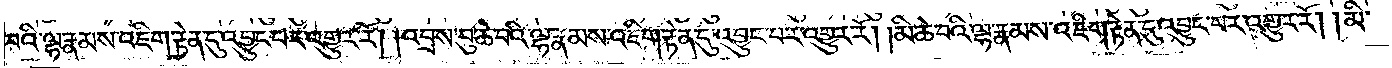བའི་ལྷ་རྣམས་འཇིག་རྟེན་དུ་འབྱུང་བར་འགྱུར་རོ། །འབྲས་བུ་ཆེ་བའི་ལྷ་རྣམས་འཇིག་རྟེན་དུ་འབྱུང་བར་འགྱུར་རོ། །མི་ཆེ་བའི་ལྷ་རྣམས་འཇིག་རྟེན་དུ་འབྱུང་བར་འགྱུར་རོ། །མི་
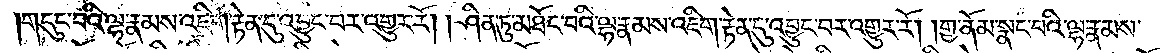གདུང་བའི་ལྷ་རྣམས་འཇིག་རྟེན་དུ་འབྱུང་བར་འགྱུར་རོ། །ཤིན་ཏུ་མཐོང་བའི་ལྷ་རྣམས་འཇིག་རྟེན་དུ་འབྱུང་བར་འགྱུར་རོ། །གྱ་ནོམ་སྣང་བའི་ལྷ་རྣམས་
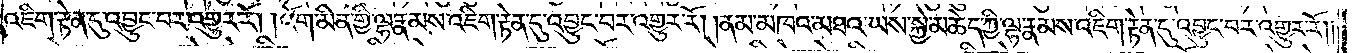འཇིག་རྟེན་དུ་འབྱུང་བར་འགྱུར་རོ། །འོག་མིན་གྱི་ལྷ་རྣམས་འཇིག་རྟེན་དུ་འབྱུང་བར་འགྱུར་རོ། །ནམ་མཁའ་མཐའ་ཡས་སྐྱེ་མཆེད་ཀྱི་ལྷ་རྣམས་འཇིག་རྟེན་དུ་འབྱུང་བར་འགྱུར་རོ། །
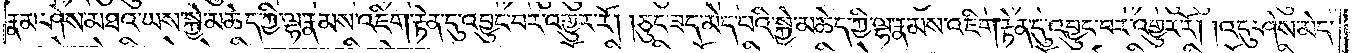རྣམ་ཤེས་མཐའ་ཡས་སྐྱེ་མཆེད་ཀྱི་ལྷ་རྣམས་འཇིག་རྟེན་དུ་འབྱུང་བར་འགྱུར་རོ། །ཅུང་ཟད་མེད་པའི་སྐྱེ་མཆེད་ཀྱི་ལྷ་རྣམས་འཇིག་རྟེན་དུ་འབྱུང་བར་འགྱུར་རོ། །འདུ་ཤེས་མེད་
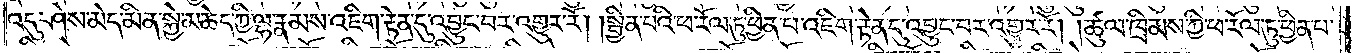འདུ་ཤེས་མེད་མིན་སྐྱེ་མཆེད་ཀྱི་ལྷ་རྣམས་འཇིག་རྟེན་དུ་འབྱུང་བར་འགྱུར་རོ། །སྦྱིན་པའི་ཕ་རོལ་ཏུ་ཕྱིན་པ་འཇིག་རྟེན་དུ་འབྱུང་བར་འགྱུར་རོ། །ཚུལ་ཁྲིམས་ཀྱི་ཕ་རོལ་ཏུ་ཕྱིན་པ་
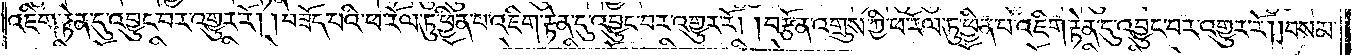འཇིག་རྟེན་དུ་འབྱུང་བར་འགྱུར་རོ། །བཟོད་པའི་ཕ་རོལ་ཏུ་ཕྱིན་པ་འཇིག་རྟེན་དུ་འབྱུང་བར་འགྱུར་རོ། །བརྩོན་འགྲུས་ཀྱི་ཕ་རོལ་ཏུ་ཕྱིན་པ་འཇིག་རྟེན་དུ་འབྱུང་བར་འགྱུར་རོ། །བསམ་
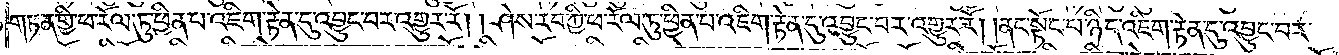གཏན་གྱི་ཕ་རོལ་ཏུ་ཕྱིན་པ་འཇིག་རྟེན་དུ་འབྱུང་བར་འགྱུར་རོ། །ཤེས་རབ་ཀྱི་ཕ་རོལ་ཏུ་ཕྱིན་པ་འཇིག་རྟེན་དུ་འབྱུང་བར་འགྱུར་རོ། །ནང་སྟོང་པ་ཉིད་འཇིག་རྟེན་དུ་འབྱུང་བར་
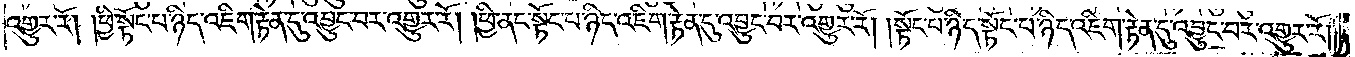འགྱུར་རོ། །ཕྱི་སྟོང་པ་ཉིད་འཇིག་རྟེན་དུ་འབྱུང་བར་འགྱུར་རོ། །ཕྱི་ནང་སྟོང་པ་ཉིད་འཇིག་རྟེན་དུ་འབྱུང་བར་འགྱུར་རོ། །སྟོང་པ་ཉིད་སྟོང་པ་ཉིད་འཇིག་རྟེན་དུ་འབྱུང་བར་འགྱུར་རོ༎
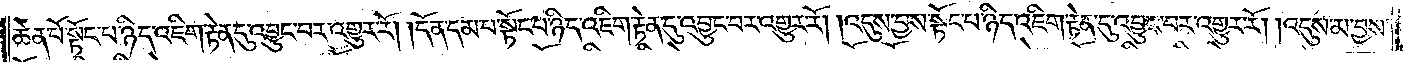ཆེན་པོ་སྟོང་པ་ཉིད་འཇིག་རྟེན་དུ་འབྱུང་བར་འགྱུར་རོ། །དོན་དམ་པ་སྟོང་པ་ཉིད་འཇིག་རྟེན་དུ་འབྱུང་བར་འགྱུར་རོ། །འདུས་བྱས་སྟོང་པ་ཉིད་འཇིག་རྟེན་དུ་འབྱུང་བར་འགྱུར་རོ། །འདུས་མ་བྱས་
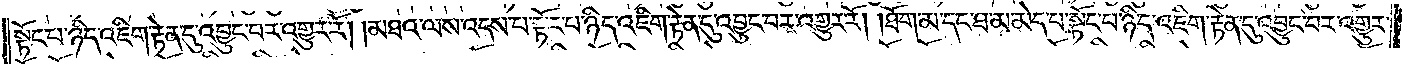སྟོང་པ་ཉིད་འཇིག་རྟེན་དུ་འབྱུང་བར་འགྱུར་རོ། །མཐའ་ལས་འདས་པ་སྟོང་པ་ཉིད་འཇིག་རྟེན་དུ་འབྱུང་བར་འགྱུར་རོ། །ཐོག་མ་དང་ཐ་མ་མེད་པ་སྟོང་བ་ཉིད་འཇིག་རྟེན་དུ་འབྱུང་བར་འགྱུར་
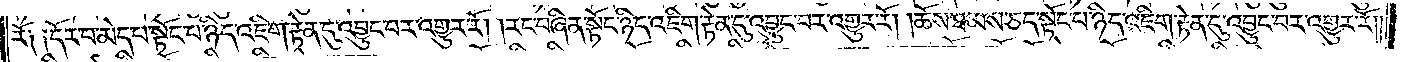རོ༑ ༑དོར་བ་མེད་པ་སྟོང་པ་ཉིད་འཇིག་རྟེན་དུ་འབྱུང་བར་འགྱུར་རོ། །རང་བཞིན་སྟོང་པ་ཉིད་འཇིག་རྟེན་དུ་འབྱུང་བར་འགྱུར་རོ། །ཆོས་ཐམས་རང་སྟང་པ་ཉིད་འཇིག་རྟེན་དུ་འབྱུང་བར་འགྱུར་རོ། །
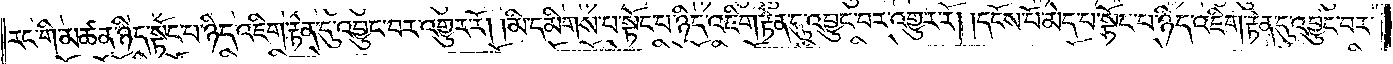རང་གི་མཚན་ཉིད་སྟོང་པ་ཉིད་འཇིག་རྟེན་དུ་འབྱུང་བར་འགྱུར་རོ། །མི་དམིགས་པ་སྟོང་པ་ཉིད་འཇིག་རྟེན་དུ་འབྱུང་བར་འགྱུར་རོ། །དངོས་པོ་མེད་པ་སྟོང་པ་ཉིད་འཇིག་རྟེན་དུ་འབྱུང་བར་
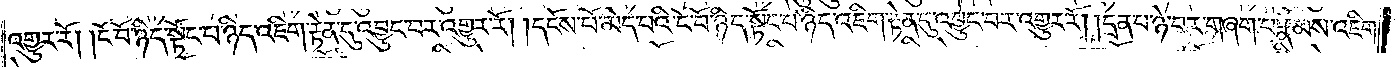འགྱུར་རོ། །ངོ་བོ་ཉིད་སྟོང་བ་ཉིད་འཇིག་རྟེན་དུ་འབྱུང་བར་འགྱུར་རོ། །དངོས་པོ་མེད་པའི་ངོ་བོ་ཉིད་སྟོང་བ་ཉིད་འཇིག་རྟེན་དུ་འབྱུང་བར་འགྱུར་རོ། །དྲན་པ་ཉེ་བར་གཞག་བ་རྣམས་འཇིག་
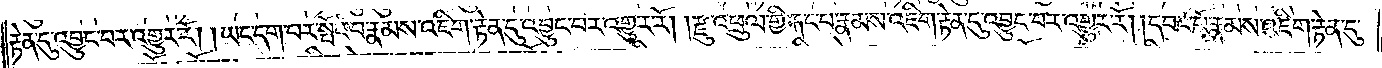རྟེན་དུ་འབྱུང་བར་འགྱུར་རོ། །ཡང་དག་པར་སྦོང་བ་རྣམས་འཇིག་རྟེན་དུ་འབྱུང་བར་འགྱུར་རོ། །རྫུ་འཕྲུལ་གྱི་རྐང་པ་རྣམས་འཇིག་རྟེན་དུ་འབྱུང་བར་འགྱུར་རོ། །དབང་བོ་རྣམས་འཇིག་རྟེན་དུ་
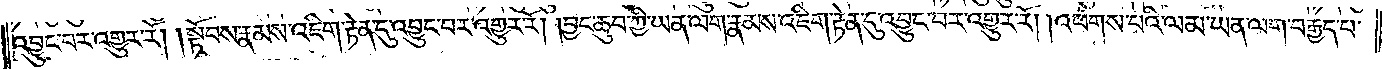འབྱུང་བར་འགྱུར་རོ། །སྟོབས་རྣམས་འཇིག་རྟེན་དུ་འབྱུང་བར་འགྱུར་རོ། །བྱང་ཆུབ་ཀྱི་ཡན་ལག་རྣམས་འཇིག་རྟེན་དུ་འབྱུང་བར་འགྱུར་རོ། །འཕགས་པའི་ལམ་ཡན་ལག་བརྒྱད་པ་
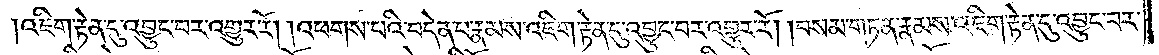འཇིག་རྟེན་དུ་འབྱུང་བར་འགྱུར་རོ། །འཕགས་པའི་བདེན་པ་རྣམས་འཇིག་རྟེན་དུ་འབྱུང་བར་འགྱུར་རོ། །བསམ་གཏན་རྣམས་འཇིག་རྟེན་དུ་འབྱུང་བར་
